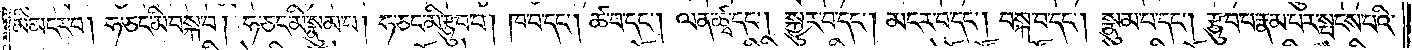མི་མངར་བ། ཧ་ཅང་མི་བསྐ་བ། ཧ་ཅང་མི་སྣུམ་པ། ཧ་ཅང་མི་རྩུབ་པ། ཁ་བ་དང༌། ཚ་བ་དང༌། ལན་ཚྭ་དང༌། སྐྱུར་བ་དང༌། མངར་བ་དང༌། བསྐ་བ་དང༌། སྣུམ་པ་དང༌། རྩུབ་པ་རྣམ་པར་སྤངས་པའི་
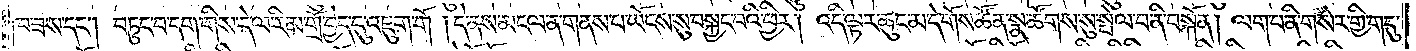ཁ་ཟས་དང༌། བཏུང་བ་དག་གིས་དེ་ལ་རིམ་གྲོ་བྱེད་དུ་འཇུག་གོ །དེ་ནས་མངལ་ན་གནས་པ་ཡོངས་སུ་བསྐྱང་བའི་ཕྱིར། འདི་ལྟར་ཆུང་མ་དེ་གོས་ཚོན་སྣ་ཚོགས་སུ་སྤེལ་བ་ནི་བསྐོན། ལག་པ་ནི་གསེར་གྱི་གདུ་
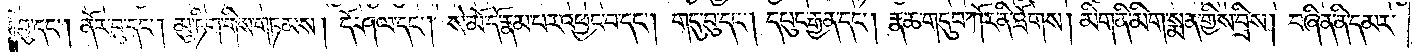བུ་དང༌། ནོར་བུ་དང༌། མུ་ཏིག་གིས་གཏམས། དོ་ཤལ་དང༌། སེ་མོ་དོ་རྣམ་པར་འཕྱང་བ་དང༌། གདུ་བུ་དང༌། དཔུང་རྒྱན་དང༌། རྣ་ཆ་གདུབ་ཀོར་ནི་ཐོགས། མིག་ནི་མིག་སྨན་གྱིས་བྲེས། བཞིན་ནི་དམར་
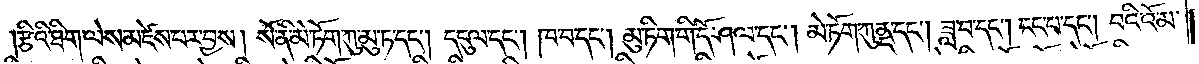རྩིའི་ཐིག་ལེས་མཛེས་པར་བྱས། སོ་ནི་མེ་ཏོག་ཀུ་མུ་ཏ་དང༌། དངུལ་དང༌། ཁ་བ་དང༌། མུ་ཏིག་གི་དོ་ཤལ་དང༌། མེ་ཏོག་ཀུནད་དང༌། ཟླ་བ་དང༌། ངང་པ་དང༌། བའི་འོ་མ་
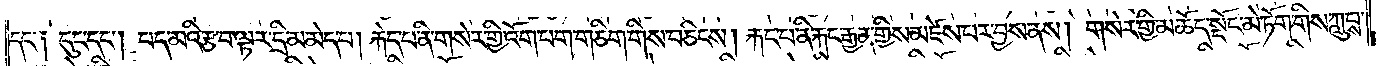དང་༑ དུང་དང༌། པད་མའི་རྩ་བ་ལྟར་དྲི་མ་མེད་པ། རྐེད་པ་ནི་གསེར་གྱི་འོག་པག་གཅིག་གིས་བཅིངས། རྐང་པ་ནི་རྐང་རྒྱན་གྱིས་མཛེས་པར་བྱས་ནས། གསེར་གྱི་མཆོད་སྡོང་མེ་ཏོག་གིས་ཀླུབས་
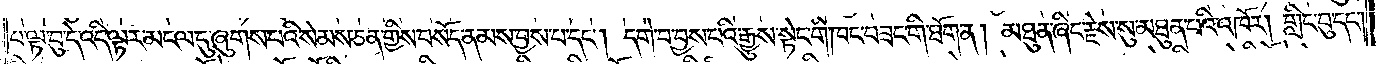པ་ལྟ་བུ་དེ་འདི་ལྟར་མངལ་དུ་ཞུགས་པའི་སེམས་ཅན་གྱིས་བསོད་ནམས་བྱས་པ་དང༌། དགེ་བ་བྱས་པའི་རྒྱུས་སྟེང་གི་ཁང་བཟང་གི་ཐོག་ན། མཐུན་ཞིང་རྗེས་སུ་མཐུན་པའི་འཁོར། གླིང་བུ་དང༌།
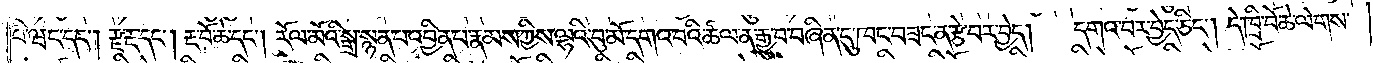པི་ཝང་དང༌། རྫ་རྔ་དང༌། རྔ་བོ་ཆེ་དང༌། རོལ་མོའི་སྒྲ་སྙན་པ་འབྱིན་པ་རྣམས་ཀྱིས་ལྷའི་བུ་མོ་དགའ་བའི་ཚལ་ན་རྒྱུ་བ་བཞིན་དུ་ཁང་བཟང་ན་རྩེ་བར་བྱེད། དགའ་བར་བྱེད་ཅིང༌། དེ་ཁྲི་བོ་ཆེ་ལེགས་
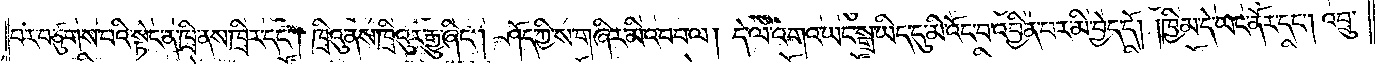པར་བཙུགས་པའི་སྟེང་ན་ཁྲི་ནས་ཁྲིར་དང༌། ཁྲིའུ་ནས་ཁྲིའུར་རྒྱུ་ཞིང༌། ཤོད་ཀྱི་ས་གཞིར་མི་འབབ་ལ། དེ་ལ་འགའ་ཡང་སྒྲ་ཡིད་དུ་མི་འོང་བ་འབྱིན་པར་མི་བྱེད་དོ། །ཁྱིམ་དེ་ཡང་ནོར་དང༌། འབྲུ་
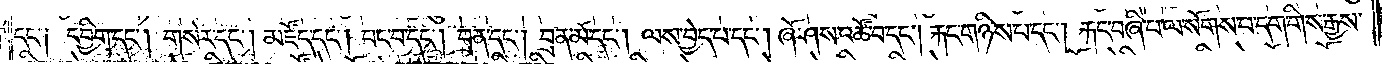དང་༑ དབྱིག་དང༌། གསེར་དང༌། མཛོད་དང༌། བང་བ་དང༌། བྲན་དང༌། བྲན་མོ་དང༌། ལས་བྱེད་པ་དང༌། ཞོ་ཤས་འཚོ་བ་དང༌། རྐང་གཉིས་པ་དང༌། རྐང་བཞི་པ་ལ་སོགས་པ་དག་གིས་རྒྱས་
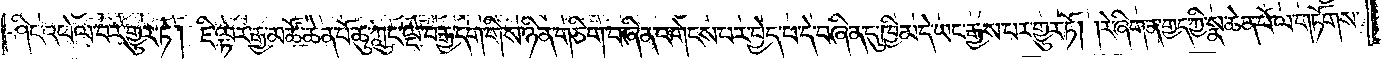ཤིང་འཕེལ་བར་གྱུར་ཏེ། ཇི་ལྟར་རྒྱ་མཚོ་ཆེན་པོ་ཆུ་ཀླུང་ལྔ་བརྒྱ་དག་གིས་ཉིན་གཅིག་བཞིན་འགེངས་པར་བྱེད་པ་དེ་བཞིན་དུ་ཁྱིམ་དེ་ཡང་རྒྱས་པར་གྱུར་ཏོ། །རེ་ཞིག་ན་གྱད་ཀྱི་སྣ་ཆེན་པོ་ལ་གཏོགས་
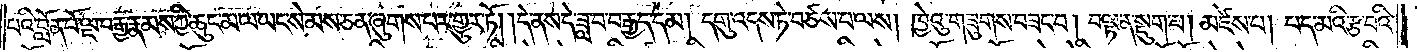པའི་བློན་པོ་ལྔ་བརྒྱ་རྣམས་ཀྱི་ཆུང་མ་ལ་ཡང་སེམས་ཅན་ཞུགས་པར་གྱུར་ཏོ། །དེ་ནས་དེ་ཟླ་བ་བརྒྱད་དམ། དགུ་འདས་ཏེ་བཙས་པ་ལས། ཁྱེའུ་གཟུགས་བཟང་བ། བལྟ་ན་སྡུག་པ། མཛེས་པ། པད་མའི་རྩ་བའི་
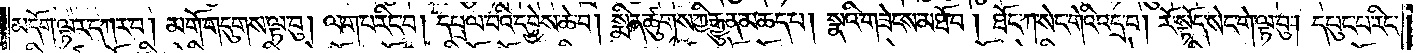མདོག་ལྟར་དཀར་བ། མགོ་གདུགས་ལྟ་བུ། ལག་པ་རིང་བ། དཔྲལ་བའི་དབྱེས་ཆེ་བ། སྨིན་ཚུགས་ཀྱི་རྒྱུན་མ་ཆད་པ། སྣའི་གཟེངས་མཐོ་བ། ཐོང་ཀ་སེང་གེའི་འདྲ་བ། རོ་སྟོད་སེང་གེ་ལྟ་བུ། དཔུང་པ་རིང་
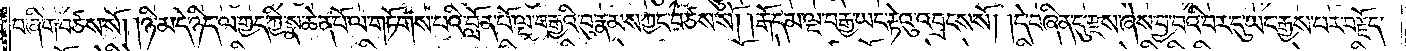བ་ཞིག་བཙས་སོ། །ཉི་མ་དེ་ཉིད་ལ་གྱད་ཀྱི་སྣ་ཆེན་པོ་ལ་གཏོགས་པའི་བློན་པོ་ལྔ་བརྒྱའི་བུ་རྣམས་ཀྱང་བཙས་སོ། །རྒོད་མ་ལྔ་བརྒྱ་ཡང་རྟེའུ་འབྲངས་སོ། །དེ་བཞིན་དུ་རྫས་ཞེས་བྱ་བའི་བར་དུ་ཡང་རྒྱས་པར་བརྗོད་
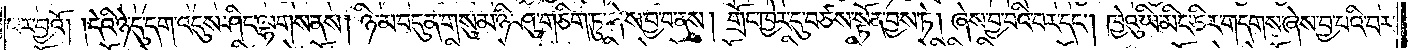པར་བྱའོ། །དེའི་ཉེ་དུ་དག་འདུས་ཤིང་ལྷགས་ནས། ཉི་མ་བདུན་གསུམ་ཉི་ཤུ་གཅིག་ཏུ་ཞེས་བྱ་བ་ནས། གྲོང་ཁྱེར་དུ་བཙས་སྟོན་བྱས་ཏེ། ཞེས་བྱ་བའི་བར་དང༌། ཁྱེའུ་ཡི་མིང་ཅིར་གདགས་ཞེས་བྱ་བའི་བར་
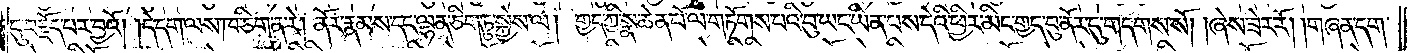དུ་བརྗོད་པར་བྱའོ། །དེ་དག་ལས་ཁ་ཅིག་ན་རེ། ནོར་རྣམས་དང་ལྷན་ཅིག་ཏུ་སྐྱེས་ལ། གྱད་ཀྱི་སྣ་ཆེན་པོ་ལ་གཏོགས་པའི་བུ་ཡང་ཡིན་པས་དེའི་ཕྱིར་མིང་གྱད་བུ་ནོར་དུ་གདགས་སོ། །ཞེས་ཟེར་རོ། །གཞན་དག་
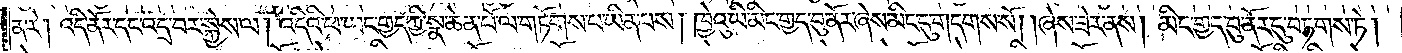ན་རེ། འདི་ནོར་དང་འདྲ་བར་སྐྱེས་ལ། འདིའི་ཕ་ཡང་གྱད་ཀྱི་སྣ་ཆེན་པོ་ལ་གཏོགས་པ་ཡིན་པས། ཁྱེའུ་ཡི་མིང་གྱད་བུ་ནོར་ཞེས་མིང་དུ་གདགས་སོ། །ཞེས་ཟེར་ནས། མིང་གྱད་བུ་ནོར་དུ་བཏགས་ཏེ།
